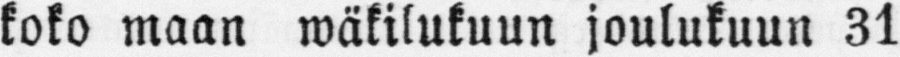koko maan wäkilukuun joulukuun 31
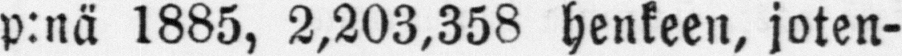p:nä 1885, 2,203,358 henkeen, joten-
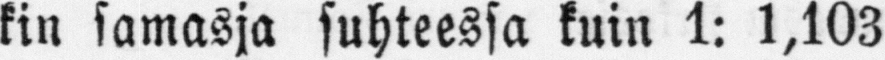kin samassa suhteessa kuin 1: 1,103
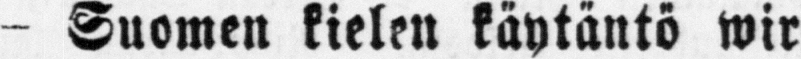- Suomen kielen käytäntö wir-
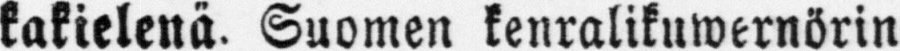kakielenä. Suomen kenralikuwernörin
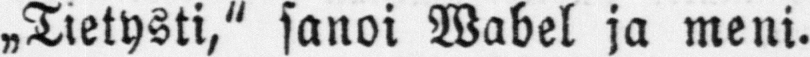„Tietysti," sanoi Wabel ja meni.
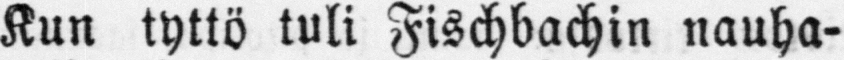Kun tyttö tuli Fischbachin nauha-
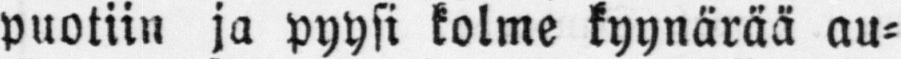puotiin ja pyysi kolme kyynärää au-
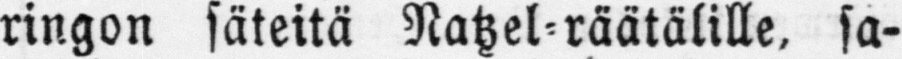ringon säteitä Natzel-räätälille, sa-
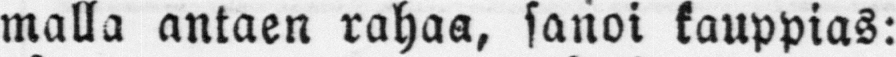malla antaen rahaa, sanoi kauppias:
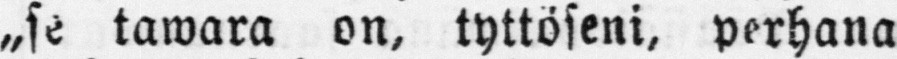„se tawara on, tyttöseni, perhana
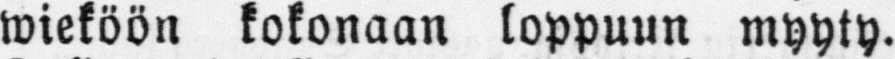wieköön kokonaan loppuun myyty.
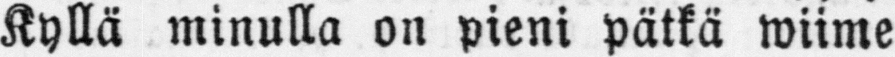Kyllä minulla on pieni pätkä wiime
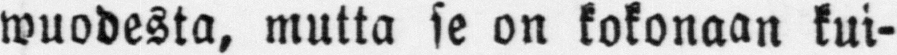wuodesta, mutta se on kokonaan kui-
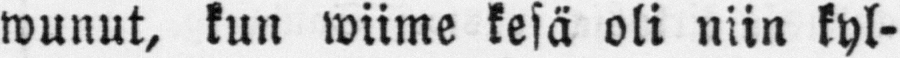wunut, kun wiime kesä oli niin kyl-
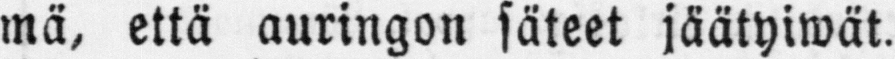mä, että auringon säteet jäätyiwät.
